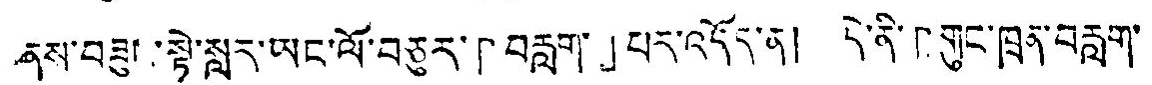ནས་བཟུག་སྟེ་སླར་ཡང་ལོ་བཅུར་「བརླག་」པར་འདོད་ན། དེ་ནི་「གུང་ཁྲན་བརླག་
